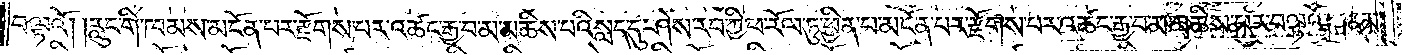བལྟའོ༑ ༑རླུང་གི་ཁམས་མངོན་པར་རྫོགས་པར་འཚང་རྒྱ་བ་མ་མཆིས་པའི་སླད་དུ་ཤེས་རབ་ཀྱི་ཕ་རོལ་ཏུ་ཕྱིན་པ་མངོན་པར་རྫོགས་པར་འཚང་རྒྱ་བ་མ་མཆིས་པར་བལྟའོ། །ནམ་
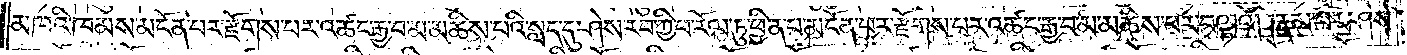མཁའི་ཁམས་མངོན་པར་རྫོགས་པར་འཚང་རྒྱ་བ་མ་མཆིས་པའི་སླད་དུ་ཤེས་རབ་ཀྱི་ཕ་རོལ་ཏུ་ཕྱིན་པ་མངོན་པར་རྫོགས་པར་འཚང་རྒྱ་བ་མ་མཆིས་པར་བལྟའོ། །རྣམ་པར་ཤེས་
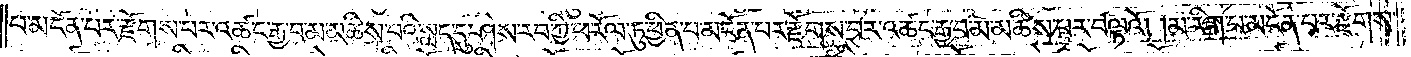པ་མངོན་པར་རྫོགས་པར་འཚང་རྒྱ་བ་མ་མཆིས་པའི་སླད་དུ་ཤེས་རབ་ཀྱི་ཕ་རོལ་ཏུ་ཕྱིན་པ་མངོན་པར་རྫོགས་པར་འཚང་རྒྱ་བ་མ་མཆིས་པར་བལྟའོ། །མ་རིག་པ་མངོན་པར་རྫོགས་
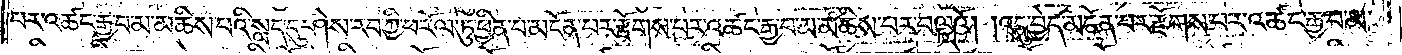པར་འཚང་རྒྱ་བ་མ་མཆིས་པའི་སླད་དུ་ཤེས་རབ་ཀྱི་ཕ་རོལ་ཏུ་ཕྱིན་པ་མངོན་པར་རྫོགས་པར་འཚང་རྒྱ་བ་མ་མཆིས་པར་བལྟའོ། །འདུ་བྱེད་མངོན་པར་རྫོགས་པར་འཚང་རྒྱ་བ་མ་
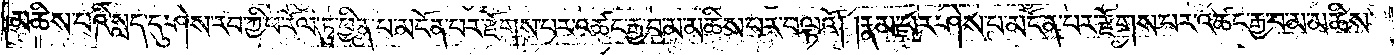མཆིས་པའི་སླད་དུ་ཤེས་རབ་ཀྱི་ཕ་རོལ་ཏུ་ཕྱིན་པ་མངོན་པར་རྫོགས་པར་འཚང་རྒྱ་བ་མ་མཆིས་པར་བལྟའོ། །རྣམ་པར་ཤེས་པ་མངོན་པར་རྫོགས་པར་འཚང་རྒྱ་བ་མ་མཆིས་
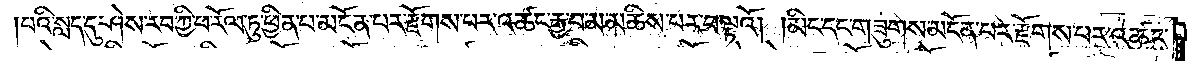པའི་སླད་དུ་ཤེས་རབ་ཀྱི་ཕ་རོལ་ཏུ་ཕྱིན་པ་མངོན་པར་རྫོགས་པར་འཚང་རྒྱ་བ་མ་མཆིས་པར་བལྟའོ། །མིང་དང་གཟུགས་མངོན་པར་རྫོགས་པར་འཚང་
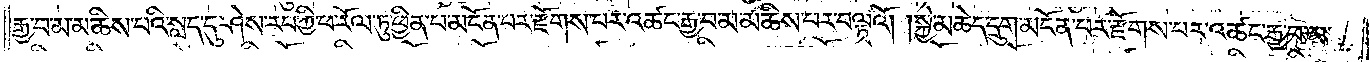རྒྱ་བ་མ་མཆིས་པའི་སླད་དུ་ཤེས་རབ་ཀྱི་ཕ་རོལ་ཏུ་ཕྱིན་པ་མངོན་པར་རྫོགས་པར་འཚང་རྒྱ་བ་མ་མཆིས་པར་བལྟའོ། །སྐྱེ་མཆེད་དྲུག་མངོན་པར་རྫོགས་པར་འཚང་རྒྱ་བ་མ་
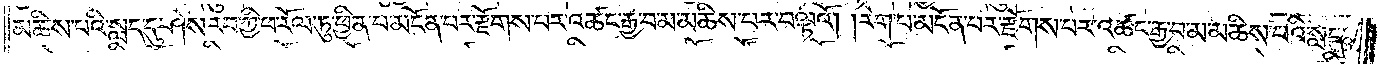མཆིས་པའི་སླད་དུ་ཤེས་རབ་ཀྱི་ཕ་རོལ་ཏུ་ཕྱིན་པ་མངོན་པར་རྫོགས་པར་འཚང་རྒྱ་བ་མ་མཆིས་པར་བལྟའོ། །རེག་པ་མངོན་པར་རྫོགས་པར་འཚང་རྒྱ་བ་མ་མཆིས་པའི་སླད་
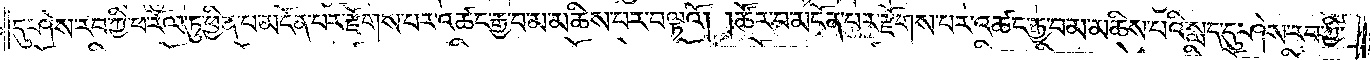དུ་ཤེས་རབ་ཀྱི་ཕ་རོལ་ཏུ་ཕྱིན་པ་མངོན་པར་རྫོགས་པར་འཚང་རྒྱ་བ་མ་མཆིས་པར་བལྟའོ། ཚོར་བ་མངོན་པར་རྫོགས་པར་འཚང་རྒྱ་བ་མ་མཆིས་བའི་སླད་དུ་ཤེས་རབ་ཀྱི་
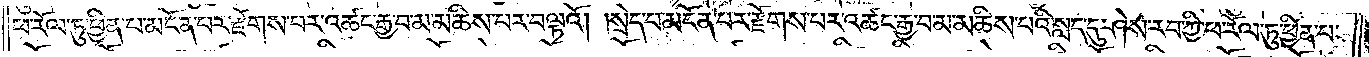ཕ་རོལ་ཏུ་ཕྱིན་པ་མངོན་པར་རྫོགས་པར་འཚང་རྒྱ་བ་མ་མཆིས་པར་བལྟའོ། །སྲེད་པ་མངོན་པར་རྫོགས་པར་འཚང་རྒྱ་བ་མ་མཆིས་པའི་སླད་དུ་ཤེས་རབ་ཀྱི་ཕ་རོལ་ཏུ་ཕྱིན་པ་
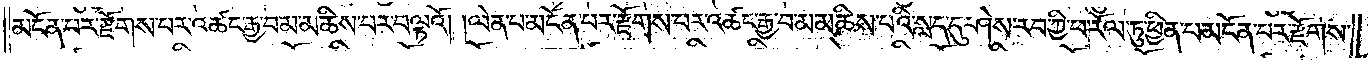མངོན་པར་རྫོགས་པར་འཚང་རྒྱ་བ་མ་མཆིས་པར་བལྟའོ། །ལེན་པ་མངོན་པར་རྫོགས་པར་འཚང་རྒྱ་བ་མ་མཆིས་པའི་སླད་དུ་ཤེས་རབ་ཀྱི་ཕ་རོལ་ཏུ་ཕྱིན་པ་མངོན་པར་རྫོགས་
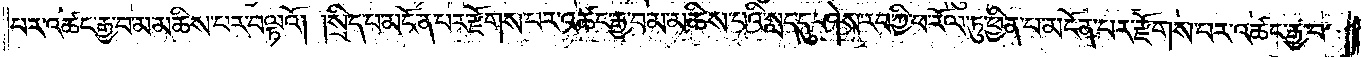པར་འཚང་རྒྱ་བ་མ་མཆིས་པར་བལྟའོ། །སྲིད་པ་མངོན་པར་རྫོགས་པར་འཚང་རྒྱ་བ་མ་མཆིས་པའི་སླད་དུ་ཤེས་རབ་ཀྱི་ཕ་རོལ་ཏུ་ཕྱིན་པ་མངོན་པར་རྫོགས་པར་འཚང་རྒྱ་བ་
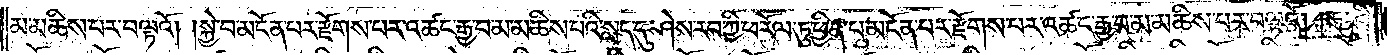མ་མཆིས་པར་བལྟའོ། །སྐྱེ་བ་མངོན་པར་རྫོགས་པར་འཚང་རྒྱ་བ་མ་མཆིས་པའི་སླད་དུ་ཤེས་རབ་ཀྱི་ཕ་རོལ་ཏུ་ཕྱིན་པ་མངོན་པར་རྫོགས་པར་འཚང་རྒྱ་བ་མ་མཆིས་པར་བལྟའོ། །རྒ་ཤི་
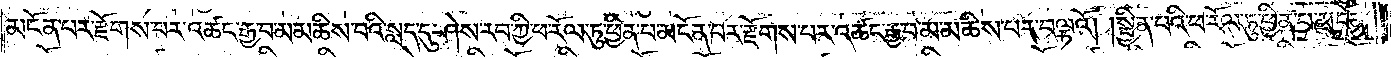མངོན་པར་རྫོགས་པར་འཚང་རྒྱ་བ་མ་མཆིས་པའི་སླད་དུ་ཤེས་རབ་ཀྱི་ཕ་རོལ་ཏུ་ཕྱིན་པ་མངོན་པར་རྫོགས་པར་འཚང་རྒྱ་བ་མ་མཆིས་པར་བལྟའོ། །སྦྱིན་པའི་ཕ་རོལ་ཏུ་ཕྱིན་པ་མངོན་
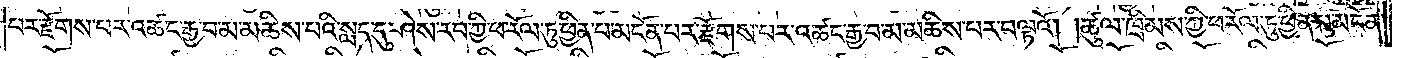པར་རྫོགས་པར་འཚང་རྒྱ་བ་མ་མཆིས་པའི་སླད་དུ་ཤེས་རབ་ཀྱི་ཕ་རོལ་ཏུ་ཕྱིན་པ་མངོན་པར་རྫོགས་པར་འཚང་རྒྱ་བ་མ་མཆིས་པར་བལྟའོ། །ཚུལ་ཁྲིམས་ཀྱི་ཕ་རོལ་ཏུ་ཕྱིན་པ་མངོན་
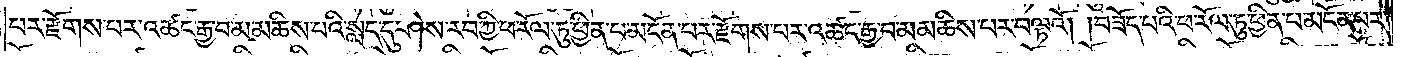པར་རྫོགས་པར་འཚང་རྒྱ་བ་མ་མཆིས་པའི་སླད་དུ་ཤེས་རབ་ཀྱི་ཕ་རོལ་ཏུ་ཕྱིན་པ་མངོན་པར་རྫོགས་པར་འཚང་རྒྱ་བ་མ་མཆིས་པར་བལྟའོ། །བཟོད་པའི་ཕ་རོལ་ཏུ་ཕྱིན་པ་མངོན་པར་
